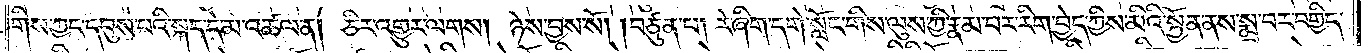གིས་ཀྱང་དབུས་པའི་སྐད་དེ་མ་འཚལ་ན། ཅིར་འགྱུར་ལགས། ཉེས་བྱས་སོ། །བཙུན་པ། རེ་ཞིག་དགེ་སློང་གིས་ལུས་ཀྱི་རྣམ་པར་རིག་བྱེད་ཀྱིས་མིའི་སྐྱོན་ནས་སྨྲ་བར་བགྱིད་
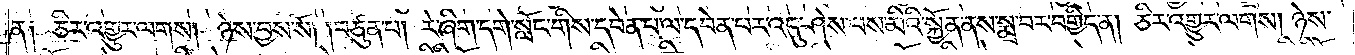ན༑ ཅིར་འགྱུར་ལགས། ཉེས་བྱས་སོ། །བཙུན་པ། རེ་ཞིག་དགེ་སློང་གིས་དབེན་པ་ལ་དབེན་པར་འདུ་ཤེས་པས་མིའི་སྐྱོན་ནས་སྨྲ་བར་བགྱིད་ན། ཅིར་འགྱུར་ལགས། ཉེས་
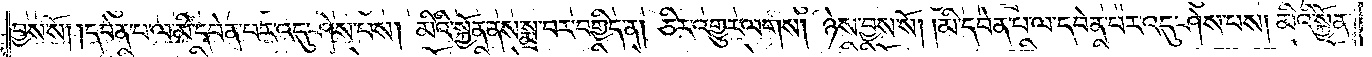བྱས་སོ། །དབེན་པ་ལ་མི་དབེན་པར་འདུ་ཤེས་པས། མིའི་སྐྱོན་ནས་སྨྲ་བར་བགྱིད་ན། ཅིར་འགྱུར་ལགས། ཉེས་བྱས་སོ། །མི་དབེན་པ་ལ་དབེན་པར་འདུ་ཤེས་པས། མིའི་སྐྱོན་
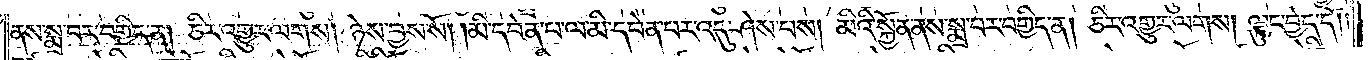ནས་སྨྲ་བར་བགྱིད་ན། ཅིར་འགྱུར་ལགས། ཉེས་བྱས་སོ། །མི་དབེན་པ་ལ་མི་དབེན་པར་འདུ་ཤེས་པས། མིའི་སྐྱོན་ནས་སྨྲ་བར་བགྱིད་ན། ཅིར་འགྱུར་ལགས། ལྟུང་བྱེད་དོ། །
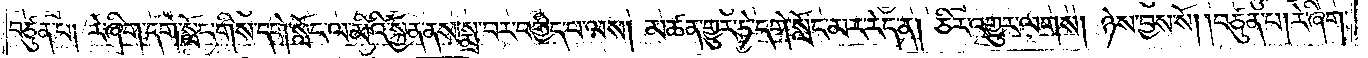བཙུན་པ། རེ་ཞིག་དགེ་སློང་གིས་དགེ་སློང་ལ་མིའི་སྐྱོན་ནས་སྨྲ་བར་བགྱིད་པ་ལས། མཚན་གྱུར་ཏེ་དགེ་སློང་མར་རེད་ན། ཅིར་འགྱུར་ལགས། ཉེས་བྱས་སོ། །བཙུན་པ། རེ་ཞིག་
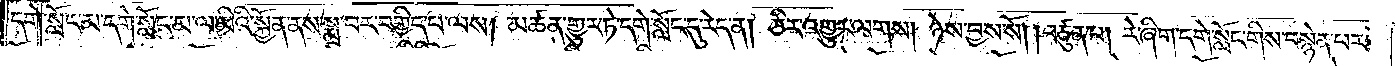དགེ་སློང་མ་དགེ་སློང་མ་ལ་མིའི་སྐྱོན་ནས་སྨྲ་བར་བགྱིད་པ་ལས། མཚན་འགྱུར་ཏེ་དགེ་སློང་དུ་རེད་ན། ཅིར་འགྱུར་ལགས། ཉེས་བྱས་སོ། །བཙུན་པ། རེ་ཞིག་དགེ་སློང་གིས་བསྙེན་པར་
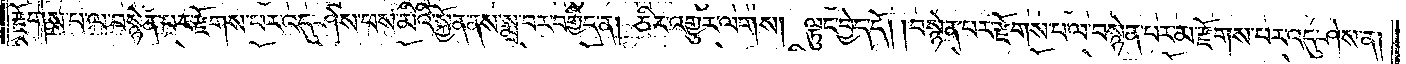རྫོགས་པ་ལ་བསྙེན་པར་རྫོགས་པར་འདུ་ཤེས་པས་མིའི་སྐྱོན་ནས་སྨྲ་བར་བགྱིད་ན། ཅིར་འགྱུར་ལགས། ལྟུང་བྱེད་དོ། །བསྙེན་པར་རྫོགས་པ་ལ་བསྙེན་པར་མ་རྫོགས་པར་འདུ་ཤེས་ན།
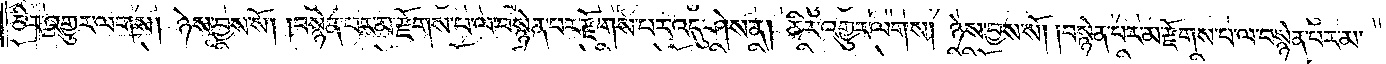ཅིར་འགྱུར་ལགས། ཉེས་བྱས་སོ། །བསྙེན་པར་མ་རྫོགས་པ་ལ་བསྙེན་པར་རྫོགས་པར་འདུ་ཤེས་ན། ཅིར་འགྱུར་ལགས། ཉེས་བྱས་སོ། །བསྙེན་པར་མ་རྫོགས་པ་ལ་བསྙེན་པར་མ་
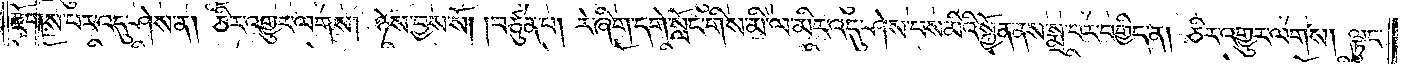རྫོགས་པར་འདུ་ཤེས་ན། ཅིར་འགྱུར་ལགས། ཉེས་བྱས་སོ། །བཙུན་པ། རེ་ཞིག་དགེ་སློང་གིས་མི་ལ་མིར་འདུ་ཤེས་པས་མིའི་སྐྱོན་ནས་སྨྲ་བར་བགྱིད་ན། ཅིར་འགྱུར་ལགས། ལྟུང་
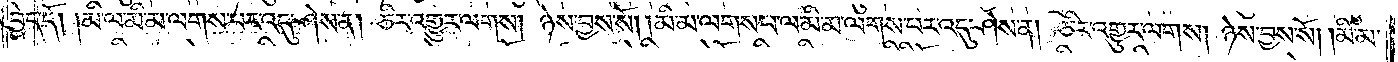བྱེད་དོ། །མི་ལ་མི་མ་ལགས་པར་འདུ་ཤེས་ན། ཅིར་འགྱུར་ལགས། ཉེས་བྱས་སོ། །མི་མ་ལགས་པ་ལ་མི་མ་ལགས་པར་འདུ་ཤེས་ན། ཅིར་འགྱུར་ལགས། ཉེས་བྱས་སོ། །མི་མ་
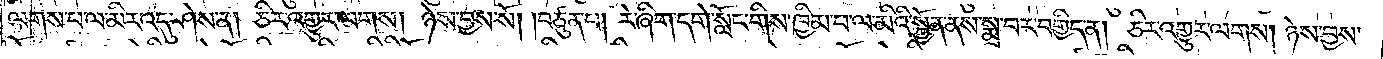ལགས་པ་ལ་མིར་འདུ་ཤེས་ན། ཅིར་འགྱུར་ལགས། ཉེས་བྱས་སོ། །བཙུན་པ། རེ་ཞིག་དགེ་སློང་གིས་ཁྱིམ་པ་ལ་མིའི་སྐྱོན་ནས་སྨྲ་བར་བགྱིད་ན། ཅིར་འགྱུར་ལགས། ཉེས་བྱས་
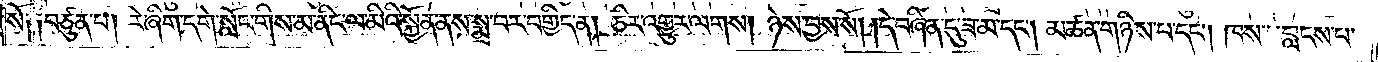སོ༑ ༑བཙུན་པ། རེ་ཞིག་དགེ་སློང་གིས་མ་ནིང་ལ་མིའི་སྐྱོན་ནས་སྨྲ་བར་བགྱིད་ན། ཅིར་འགྱུར་ལགས། ཉེས་བྱས་སོ། །དེ་བཞིན་དུ་ཟ་མ་དང༌། མཚན་གཉིས་པ་དང༌། ཁས་བླངས་པ་
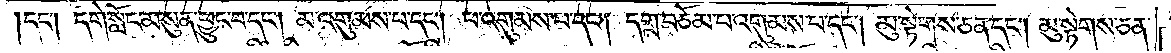།དང༌། དགེ་སློང་མ་སུན་ཕྱུང་བ་དང༌། མ་འགུམས་པ་དང༌། ཕ་འགུམས་པ་དང༌། དགྲ་བཅོམ་པ་འགུམས་པ་དང༌། མུ་སྟེགས་ཅན་དང༌། མུ་སྟེགས་ཅན་
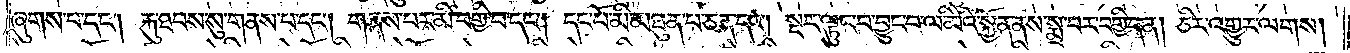ཞུགས་པ་དང༌། རྐུ་ཐབས་སུ་གནས་པ་དང༌། གནས་པར་མི་བགྱི་བ་དང༌། དང་པོ་མི་མཐུན་པ་ཅན་དང༌། སྔར་ལྟུང་བ་བྱུང་བ་ལ་མིའི་སྐྱོན་ནས་སྨྲ་བར་བགྱིད་ན། ཅིར་འགྱུར་ལགས།
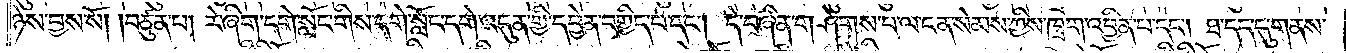ཉེས་བྱས་སོ། །བཙུན་པ། རེ་ཞིག་དགེ་སློང་གིས་དགེ་སློང་དགེ་འདུན་གྱི་དབྱེན་བགྱིད་པ་དང༌། དེ་བཞིན་གཤེགས་པ་ལ་ངན་སེམས་ཀྱིས་ཁྲག་འབྱིན་པ་དང༌། ཐ་དད་དུ་གནས་
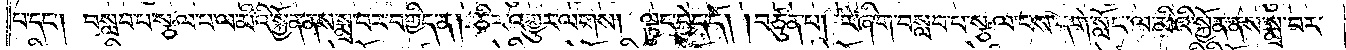པ་དང༌། བསླབ་པ་སྩལ་པ་ལ་མིའི་སྐྱོན་ནས་སྨྲ་བར་བགྱིད་ན། ཅིར་འགྱུར་ལགས། ལྟུང་བྱེད་དོ། །བཙུན་པ། རེ་ཞིག་བསླབ་པ་སྩལ་པས་དགེ་སློང་ལ་མིའི་སྐྱོན་ནས་སྨྲ་བར་
